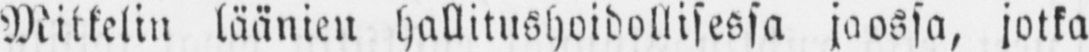Mikkelin läänien hallitushoidollisessa jaossa, jotka
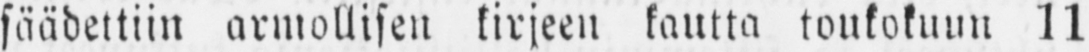säädettiin armollisen kirjeen kautta toukokuun 11
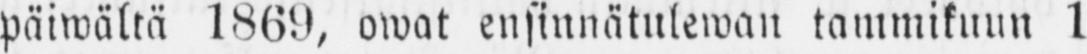päiwältä 1869, owat ensinnätulewan tammikuun 1
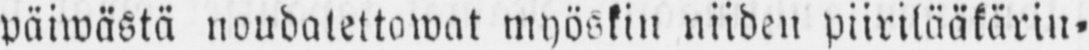päiwästä noudatettawat myöskin niiden piirilääkärin-
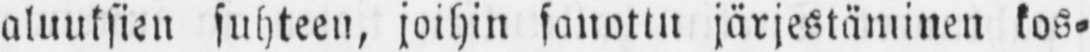aluuksien suhteen, joihin sanottu järjestäminen kos-
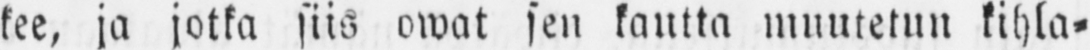kee, ja jotka siis owat sen kautta muutetun kihla-
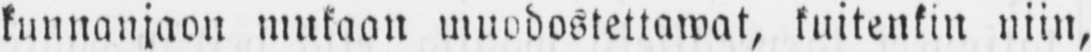kunnanjaon mukaan muodostettawat, kuitenkin niin,
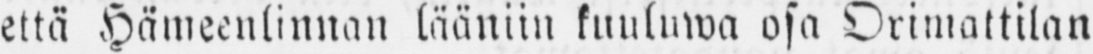että Hämeenlinnan lääniin kuuluwa osa Orimattilan
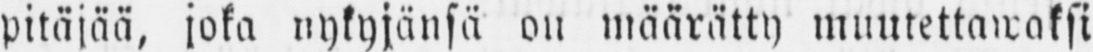pitäjää, joka nykyjänsä on määrätty muutettawaksi
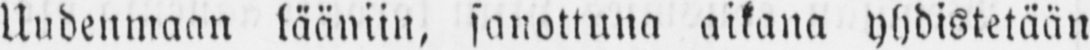Uudenmaan lääniin, sanottuna aikana yhdistetään
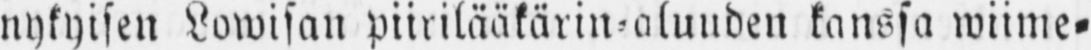nykyisen Lowisan piirilääkärin-aluuden kanssa wiime-
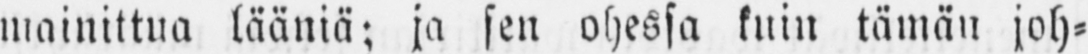mainittua lääniä; ja sen ohessa kuin tämän joh-
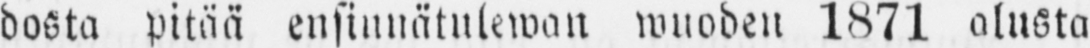dosta pitää ensinnätulewan wuoden 1871 alusta
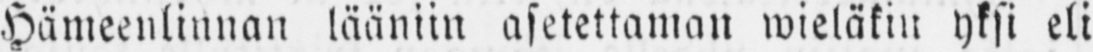Hämeenlinnan lääniin asetettaman wieläkin yksi eli
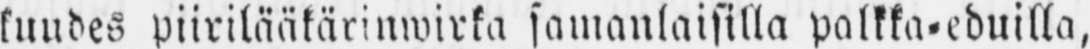kuudes piirilääkärinwirka samanlaisilla palkka-eduilla,
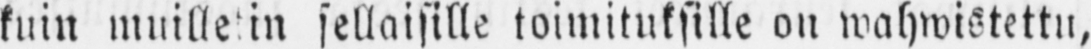kuin muilletin sellaisille toimituksille on wahwistettu,
